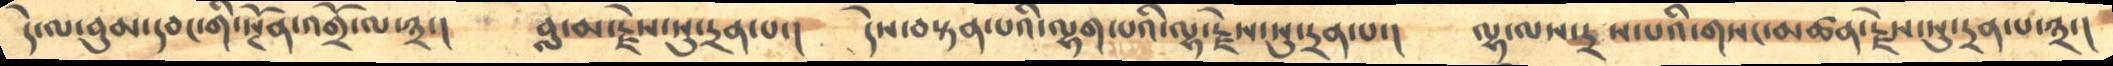དེ་ལ་བུམ་དབང་གི་སྔོན་འགྲོ་ལ་༣་།      བླ་མ་རྗེས་སུ་དྲན་པ་།     དེས་བསྟན་པའི་ལྷག་པའི་ལྷ་རྗེས་སུ་དྲན་པ་།     ལྷ་ལས་དྲ ས་པའི་གསང་མཚན་རྗེས་སུ་དྲན་པ་༣་།
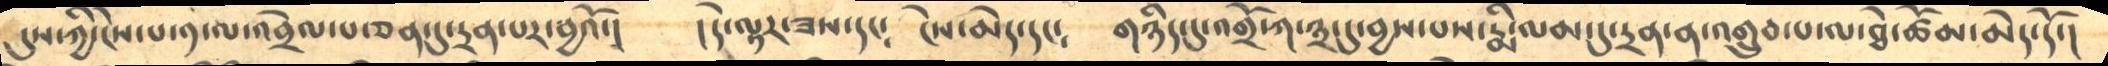དུས་ཀྱི་ངེས་པ་༡་ལ་འབྲེལ་པ་ཅན་དུ་དྲན་པར་བྱའོ་།     །དེ་ལྟར་ཟས་དང༴    ངེས་མེད་དང༴    གཉིད་དུ་འགྲོ་ཀ་༣་དུ་བྱས་པས་རྨི་ལམ་དུ་དྲན་ན་འགྲུབ་པ་ལ་ཐེ་ཚོམ་མེད་དོ་།
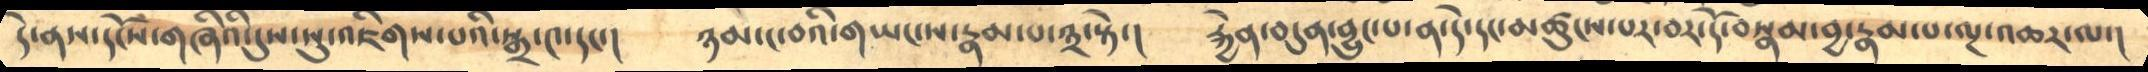དེ་ནས་དངོས་གཞིའི་དུས་སུ་འཇིགས་པའི་སྒྲ་༤་དང་།      ཉམ་ང་བའི་གཡང་ས་རྣམ་པ་༣་སྟེ་།      རྐྱེན་བདུན་བྱུང་པ་ན་དེ་དང་མཚུངས་པར་བར་དོ་བསྣམ་བྱ་རྣམ་པ་ལྔ་འཆར་ལ་།
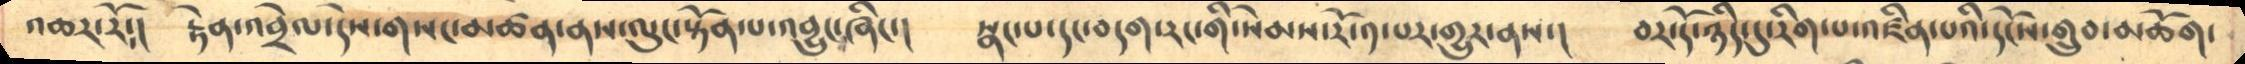འཆར་རོ༴། རྟེན་འབྲེལ་དེས་གསང་མཚན་ནས་ལུང་སྟོན་པ་འབྱུང་ཞིང་། སྣང་྄པ་དང་བདག་རང་གི་སེམས་རོ་༡་པར་གྱུར་ནས་།  བར་དོ་ཉིདདུ་རིག་པ་འཛིན་པའི་དོངས་གྲུབ་མཆོག་
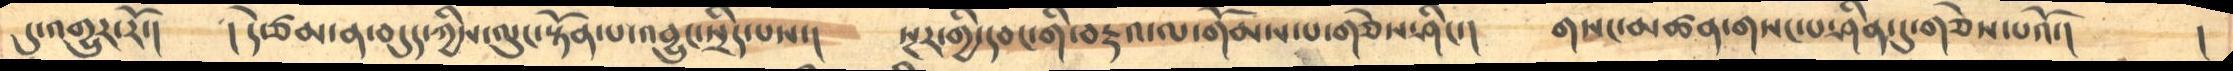དུ་འགྱུར་རོ་།   །དེ་ཙམ་ན་བདུད་ཀྱིས་ལུང་སྟོན་པ་འབྱུང་སྲིད་པས་།   སྔར་གྱི་དབང་གི་བརྡའ་ལ་གོམས་པ་གཅེས་ཤིང་།  གསང་མཚན་གསང་པ་ཤིན་དུ་གཅེས་པའོ་།      །
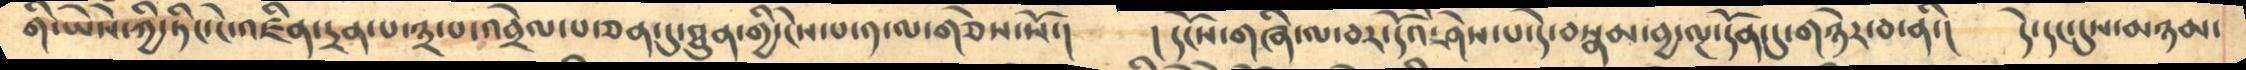གི་ཡེསེ་ཀྱི་ཏེང་ངེ་འཛིན་དྲན་པ་༣་པ་འབྲེལ་པ་ཅན་དུ་ཐུན་གྱི་ངེས་པ་༡་ལ་གཅེས་སོ་།  །དངོས་གཞི་ལ་བར་དོའི་ཤེས་པ་དེ་བསྣམ་བྱ་ལྔ་དོན་དུ་གཉེར་བ་ནི་།  དེ་དང་དུས་མཉམ་
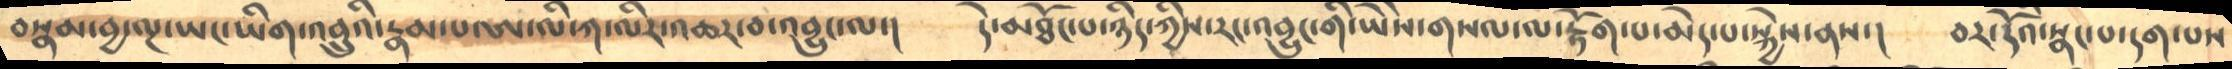བསྣམ་བྱ་ལྔ་ཡང་ཡིག་འབྲུའི་རྣམ་པ་ཨ་ལི་ཀ་ལིར་འཆར་བ་འབྱུང་ལ་།       དེ་མཐོང་པ་ཉིད་ཀྱིས་རང་འབྱུང་གི་ཡཻས་གསལ་ལ་རྟོག་པ་མེད་པ་སྐྱེས་ནས་།    བར་དོའི་སྣང་པ་དག་པས
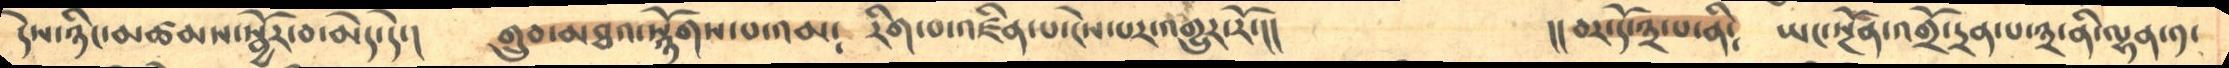དེས་ཉིང་མཚམས་སྦྱོར་བ་མེད་དེ་།     གྲུབ་མཐའ་སྙོགས་པ་འམ༴  རིག་པ་འཛིན་པ་ངེས་པར་འགྱུར་རོ་།།              །། བར་དོ་༣་པ་ནི༴  ཡང་སྔོན་འགྲོ་དྲན་པ་༣་ནི་ལྷན་༡་
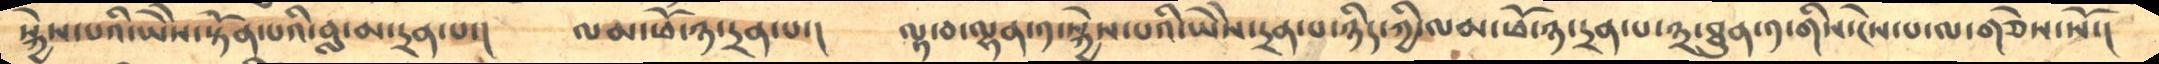སྐྱེས་པའི་ཡཻས་སྟོན་པའི་བླ་མ་དྲན་པ་།     ལམ་ཕོ་ཉ་དྲན་པ་།   ལྟ་བ་ལྷན་༡་སྐྱེས་པའི་ཡཻས་དྲན་པ་ཉིད་ཀྱི་ལམ་ཕོ་ཉ་དྲན་པ་༣་ཐུན་༡་གིས་ངེས་པ་ལ་གཅེས་སོ་།
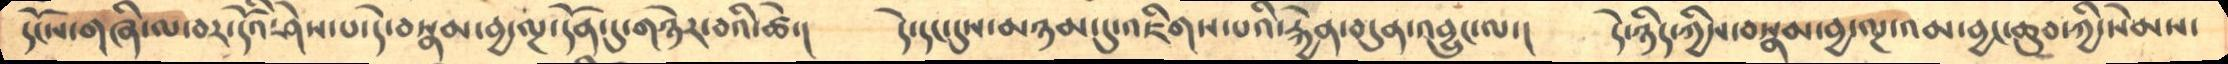དངོས་གཞི་ལ་བར་དོའི་ཤེས་པ་དེ་བསྣམ་བྱ་ལྔ་དོན་དུ་གཉེར་བའི་ཚེ་།    དེ་དང་དུས་མཉམ་དུ་འཇིགས་པའི་རྐྱེན་བདུན་འབྱུང་ལ་།    དེ་ཉིད་ཀྱིས་བསྣམ་བྱ་ལྔ་འམ་བྱང་ཆུབ་ཀྱི་སེམས་
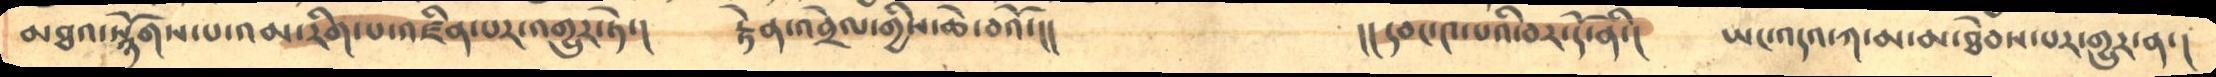མཐའ་སྙོགས་པ་འམ་རིག་པ་འཛིན་པར་འགྱུར་ཏེ་།      རྟེན་འབྲེལ་གྱིས་ཆེ་བའོ་།།            །།དབང་༤་པའི་བར་དོ་ནི་།      ཡང་འདའ་ཀ་མ་མ་ཐེབས་པར་གྱུར་ན་།
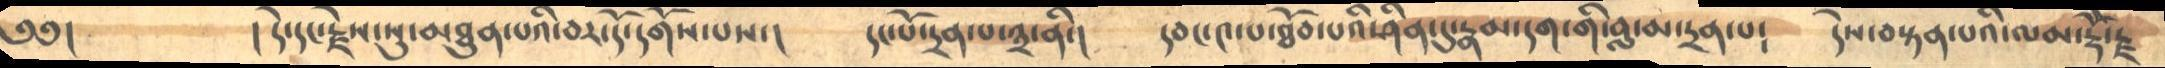༄༅།          །དེ་དང་རྗེས་སུ་མཐུན་པའི་བར་དོ་དགོས་པས་།        དང་པོ་དྲན་པ་༣་ནི་།      དབང་༤་པ་ཐོབ་པའི་ཤིན་དུ་རྣམ་དག་གི་བླ་མ་དྲན་པ༴      དེས་བསྟན་པའི་ལམ་རྡོ་རྗེ
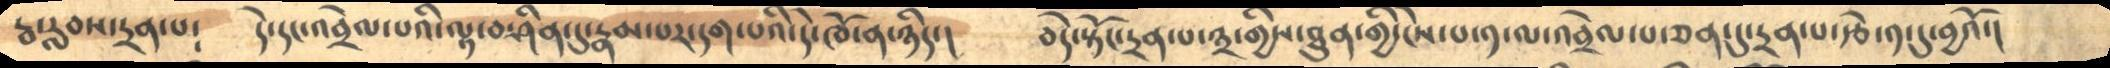རྦ་རླབས་དྲན་པ༴      དེ་དང་འབྲེལ་པའི་ལྟ་བ་ཤིན་དུ་རྣམ་པར་དག་པའི་དེ་ཁོ་ན་ཉིད་།         བདེ་སྟོང་དྲན་པ་༣་གྱིས་ཐུན་གྱི་ངེས་པ་༡་ལ་འབྲེལ་བ་ཅན་དུ་དྲན་པ་རྩེ་༡་དུ་བྱའོ་།
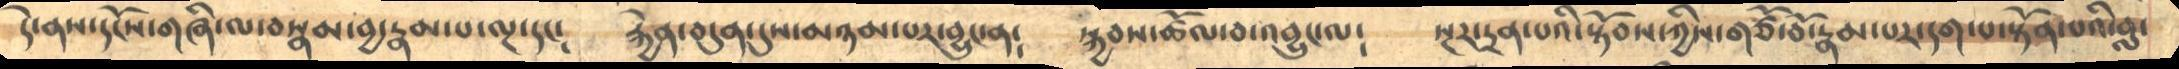དེ་ནས་དངོས་གཞི་ལ་བསྣམ་བྱ་རྣམ་པ་ལྔ་དང༴      རྐྱེན་བདུན་དུས་མཉམ་པར་བྱུང་ན༴      སྐྱབས་ཚོལ་བ་འབྱུང་ལ༴     སྔར་དྲན་པའི་སྟོབས་ཀྱིས་གཙོ་བོ་རྣམ་པར་དག་པ་སྟོན་པའི་བླ་
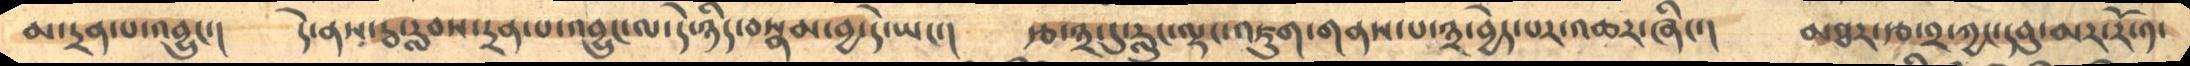མ་དྲན་པ་འབྱུང་།       དེ་ནས་རྦ་རླབས་དྲན་པ་འབྱུང་ལ་དེ་ཉིད་བསྣམ་བྱ་དེ་ཡང་།        རྩ་a༣་དུ་རླུང་ལྡང་འཇུག་གནས་པ་༣་བྱེད་པར་འཆར་ཞིང་།      མཐར་རྩ་༢་ཀྱང་དབུ་མར་རོ་༡་
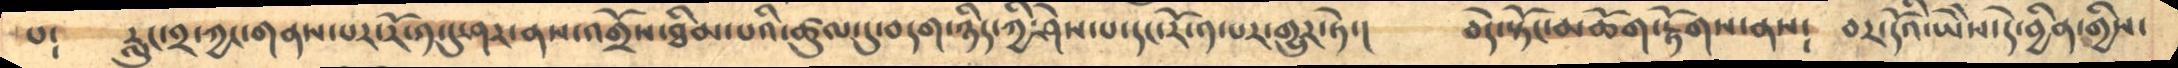པ༴    རླུང་༢་ཀྱང་གནས་པར་རོ་༡་དུ་ཤར་ནས་འགྲོས་ཐིམ་པའི་ཚུལ་དུ་བདག་ཉིད་ཀྱི་ཤེས་པ་དང་རོ་༡་པར་གྱུར་ཏེ་།     བདེ་སྟོང་མཆོག་རྟོགས་ནས༴      བར་དོའི་ཡཻས་དེ་བྱིན་གྱིས་
